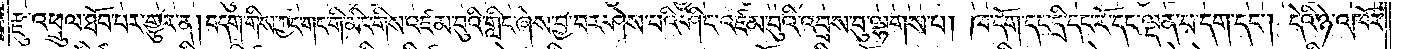རྫུ་འཕྲུལ་ཐོབ་པར་གྱུར་ན། བདག་གིས་ཀྱང་གང་གི་མིང་གིས་འཛམ་བུའི་གླིང་ཞེས་བྱ་བར་ཤེས་པའི་ཤིང་འཛམ་བུའི་འབྲས་བུ་ལྷགས་པ། ཁ་དོག་དང་དྲི་དང་རོ་དང་ལྡན་པ་དག་དང༌། དེའི་ཉེ་འཁོར་
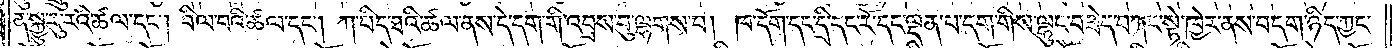ན་སྐྱུ་རུ་རའི་ཚལ་དང༌། བིལ་བའི་ཚལ་དང༌།  ཀ་པིད་ཐའི་ཚལ་ནས་དེ་དག་གི་འབྲས་བུ་ལྷགས་པ། ཁ་དོག་དང་དྲི་དང་རོ་དང་ལྡན་པ་དག་གིས་ལྷུང་བཟེད་བཀང་སྟེ་ཁྱེར་ནས་བདག་ཉིད་ཀྱང་
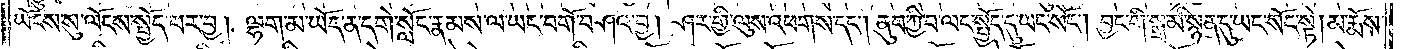ཡོངས་སུ་ལོངས་སྤྱོད་པར་བྱ། ལྷག་མ་ཡོད་ན་དགེ་སློང་རྣམས་ལ་ཡང་བགོ་བཤའ་བྱ། ཤར་གྱི་ལུས་འཕགས་དང༌། ནུབ་ཀྱི་བ་ལང་སྤྱོད་དུ་ཡང་སོང༌། བྱང་གི་སྒྲ་མི་སྙན་དུ་ཡང་སོང་སྟེ། མ་རྨོས་
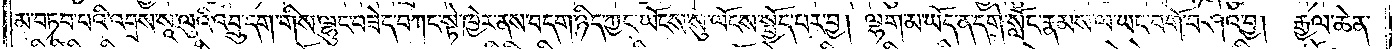མ་བཏབ་པའི་འབྲས་སཱ་ལུའི་འབྲུ་དག་གིས་ལྷུང་བཟེད་བཀང་སྟེ་ཁྱེར་ནས་བདག་ཉིད་ཀྱང་ཡོངས་སུ་ལོངས་སྤྱོད་པར་བྱ། ལྷག་མ་ཡོད་ན་དགེ་སློང་རྣམས་ལ་ཡང་བགོ་བཤའ་བྱ། རྒྱལ་ཆེན་
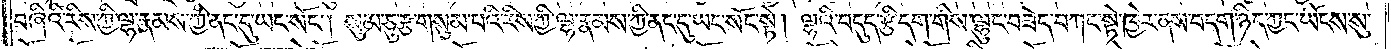བཞིའི་རིས་ཀྱི་ལྷ་རྣམས་ཀྱི་ནང་དུ་ཡང་སོང༌། སུམ་ཅུ་རྩ་གསུམ་པའི་རིས་ཀྱི་ལྷ་རྣམས་ཀྱི་ནང་དུ་ཡང་སོང་སྟེ། ལྷའི་བདུད་རྩི་དག་གིས་ལྷུང་བཟེད་བཀང་སྟེ་ཁྱེར་ནས་བདག་ཉིད་ཀྱང་ཡོངས་སུ་
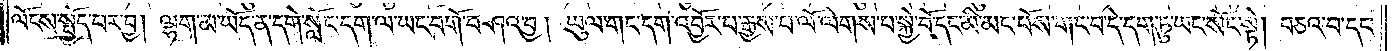ལོངས་སྤྱོད་པར་བྱ། ལྷག་མ་ཡོད་ན་དགེ་སློང་དག་ལ་ཡང་བགོ་བཤའ་བྱ། ཡུལ་གང་དག་འབྱོར་པ་རྒྱས་པ་ལོ་ལེགས་པ་སྐྱེ་བོ་དང་མི་མང་པོས་གང་བ་དེ་དག་ཏུ་ཡང་སོང་སྟེ། བཅའ་བ་དང་
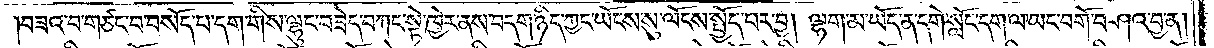བཟའ་བ་གཙང་བ་བསོད་པ་དག་གིས་ལྷུང་བཟེད་བཀང་སྟེ་ཁྱེར་ནས་བདག་ཉིད་ཀྱང་ཡོངས་སུ་ལོངས་སྤྱོད་པར་བྱ། ལྷག་མ་ཡོད་ན་དགེ་སློང་དག་ལ་ཡང་བགོ་བཤའ་བྱ་ན།
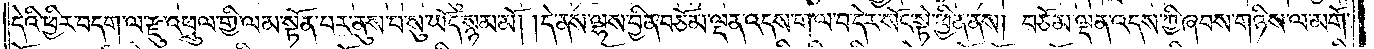དེའི་ཕྱིར་བདག་ལ་རྫུ་འཕྲུལ་གྱི་ལམ་སྟོན་པར་ནུས་པ་སུ་ཡོད་སྙམ་མོ། །དེ་ནས་ལྷས་བྱིན་བཅོམ་ལྡན་འདས་ག་ལ་བ་དེར་སོང་སྟེ་ཕྱིན་ནས། བཅོམ་ལྡན་འདས་ཀྱི་ཞབས་གཉིས་ལ་མགོ་
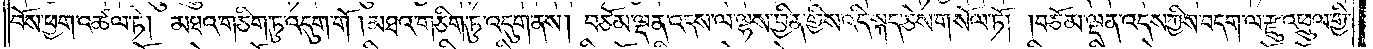བོས་ཕྱག་འཚལ་ཏེ། མཐའ་གཅིག་ཏུ་འདུག་གོ །མཐའ་གཅིག་ཏུ་འདུག་ནས། བཅོམ་ལྡན་འདས་ལ་ལྷས་བྱིན་གྱིས་འདི་སྐད་ཅེས་གསོལ་ཏོ། །བཅོམ་ལྡན་འདས་ཀྱིས་བདག་ལ་རྫུ་འཕྲུལ་གྱི་
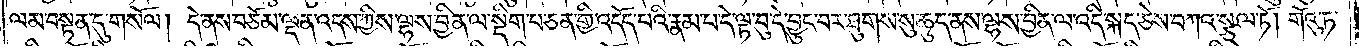ལམ་བསྟན་དུ་གསོལ། དེ་ནས་བཅོམ་ལྡན་འདས་ཀྱིས་ལྷས་བྱིན་ལ་སྡིག་པ་ཅན་གྱི་འདོད་པའི་རྣམ་པ་དེ་ལྟ་བུ་དེ་བྱུང་བར་ཐུགས་སུ་ཆུད་ནས་ལྷས་བྱིན་ལ་འདི་སྐད་ཅེས་བཀའ་སྩལ་ཏོ། གོའུ་ཏ་
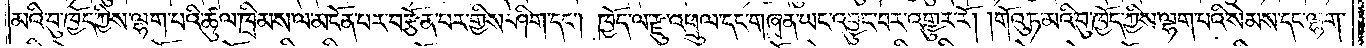མའི་བུ་ཁྱོད་ཀྱིས་ལྷག་པའི་ཚུལ་ཁྲིམས་ལ་མངོན་པར་བརྩོན་པར་གྱིས་ཤིག་དང༌། ཁྱོད་ལ་རྫུ་འཕྲུལ་དང་གཞན་ཡང་འབྱུང་བར་འགྱུར་རོ། །གོའུ་ཏ་མའི་བུ་ཁྱོད་ཀྱིས་ལྷག་པའི་སེམས་དང་ལྷག་
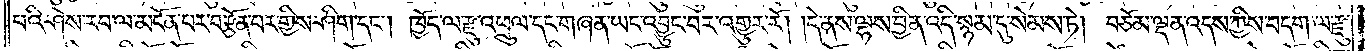པའི་ཤེས་རབ་ལ་མངོན་པར་བརྩོན་པར་གྱིས་ཤིག་དང༌། ཁྱོད་ལ་རྫུ་འཕྲུལ་དང་གཞན་ཡང་འབྱུང་བར་འགྱུར་རོ། །དེ་ནས་ལྷས་བྱིན་འདི་སྙམ་དུ་སེམས་ཏེ། བཅོམ་ལྡན་འདས་ཀྱིས་བདག་ལ་རྫུ་
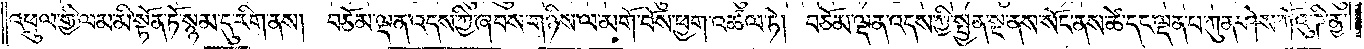འཕྲུལ་གྱི་ལམ་མི་སྟོན་ཏོ་སྙམ་དུ་རིག་ནས། བཅོམ་ལྡན་འདས་ཀྱི་ཞབས་གཉིས་ལ་མགོ་བོས་ཕྱག་འཚལ་ཏེ། བཅོམ་ལྡན་འདས་ཀྱི་སྤྱན་སྔ་ནས་སོང་ནས་ཚེ་དང་ལྡན་པ་ཀུན་ཤེས་ཀོའུ་ཌི་ནྱ་
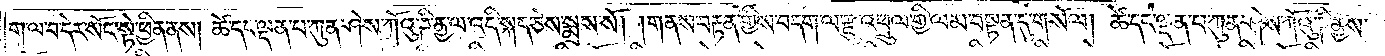ག་ལ་བ་དེར་སོང་སྟེ་ཕྱིན་ནས། ཚེ་དང་ལྡན་པ་ཀུན་ཤེས་ཀོའུ་ཌི་ནྱ་ལ་འདི་སྐད་ཅེས་སྨྲས་སོ། །གནས་བརྟན་གྱིས་བདག་ལ་རྫུ་འཕྲུལ་གྱི་ལམ་བསྟན་དུ་གསོལ། ཚེ་དང་ལྡན་པ་ཀུན་ཤེས་ཀོའུ་ཌི་ནྱས་
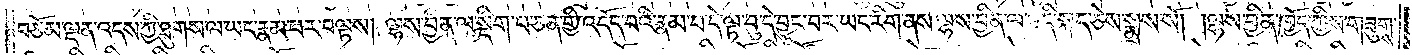བཅོམ་ལྡན་འདས་ཀྱི་ཐུགས་ལ་ཡང་རྣམ་པར་བལྟས། ལྷས་བྱིན་ལ་སྡིག་པ་ཅན་གྱི་འདོད་པའི་རྣམ་པ་དེ་ལྟ་བུ་དེ་བྱུང་བར་ཡང་རིག་ནས་ལྷས་བྱིན་ལ་འདི་སྐད་ཅེས་སྨྲས་སོ། །ལྷས་བྱིན་ཁྱོད་ཀྱིས་གཟུགས་
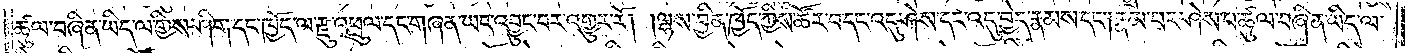ཚུལ་བཞིན་ཡིད་ལ་གྱིས་ཤིག་དང་ཁྱོད་ལ་རྫུ་འཕྲུལ་དང་གཞན་ཡང་འབྱུང་བར་འགྱུར་རོ། །ལྷས་བྱིན་ཁྱོད་ཀྱིས་ཚོར་བ་དང་འདུ་ཤེས་དང་འདུ་བྱེད་རྣམས་དང༌། རྣམ་པར་ཤེས་པ་ཚུལ་བཞིན་ཡིད་ལ་
